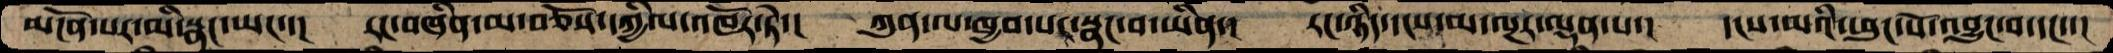མངོན་པར་མི་སྣང་ཡང་་།  རང་བཞིན་མ་བཅོས་དཀྱིལ་འཁོར་ཏེ་།  ཀུན་ལ་ཁྱབ་པར་སྣང་བ་ཡིན་།  རང་ཉིད་དངས་མ་ལྔར་ལྡན་པ་།  དངས་མའི་ཕུང་པོ་འབྱུང་བ་དང་་།
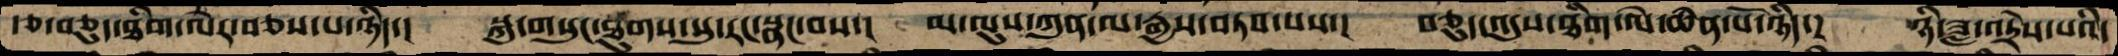རྩ་བཅུད་ཐིག་ལེར་བཅས་པ་ཉིད་།  སྐུ་གསུང་ཐུགས་སུ་རང་སྣང་བས་།  མ་ལུས་ཀུན་ལ་རྒྱས་བཏབ་པས་།  བཅུད་འདུས་ཐིག་ལེ་ཆེན་པོ་ཉིད་།  ཉི་ཟླ་འདྲེས་པའི་
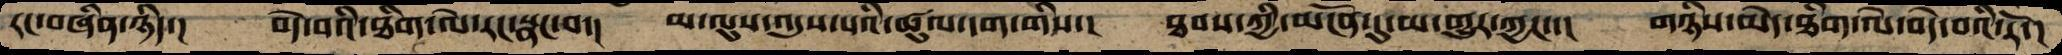རང་བཞིན་ཉིད་།  བདེ་བའི་ཐིག་ལེ་རང་སྣང་བ་།  མ་ལུས་འདུས་པའི་ཚུལ་དག་གིས་།  ཐབས་ཀྱི་མངོན་དུ་མ་གྱུར་ཀྱང་་།  གཉིས་མེད་ཐིག་ལེ་བདེ་བའི་རོ་།
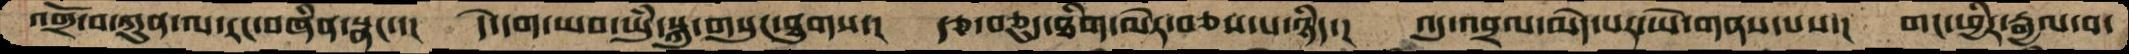འགྲོ་བ་ཀུན་ལ་རང་བཞིན་སྣང་་།  དེ་དག་ཡབ་ཡུཾ་སྐུ་གསུང་ཐུགས་།  རྩ་བཅུད་ཐིག་ལེར་བཅས་པ་ཉིད་།  འདུ་འབྲལ་མེད་པར་ཡེ་གནས་པས་།  གང་ཕྱིར་རྒྱལ་བ་
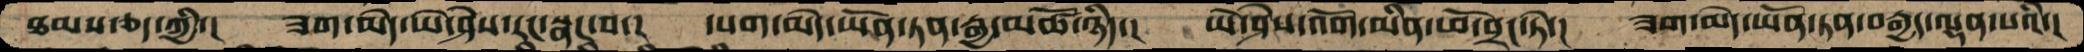ཐམས་ཅད་ཀྱི་།  ཟག་མེད་ཡེ་ཤེས་རང་སྣང་པ་།  དཔག་མེད་ཡོན་ཏན་རྒྱ་མཚོ་ཉིད་།  ཡེ་ཤེས་འོག་མིན་ཕོ་བྲང་ཏེ་།  ཟག་མེད་ཡོན་ཏན་བརྒྱད་ལྡན་པའི་།
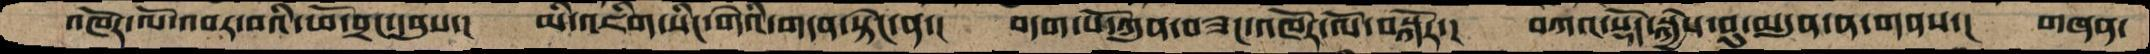འཁོར་ལོ་འབར་བའི་ཕོ་བྲང་དབུས་།  མི་འཇིག་སིང་གེའི་གདན་སྟེང་ན་།  བདག་པོ་ཀུན་བཟང་འཁོར་ལོ་བསྐོར་།  བཀའ་སྡདོ་སྐྱེས་བུ་མདུན་ན་གནས་།  གཞན་
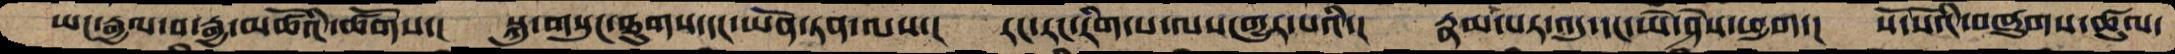ཡང་རྒྱལ་བ་རྒྱ་མཚོའི་ཚོགས་།   སྐུ་གསུང་ཐུགས་དང་ཡོན་ཏན་ལས་།  རང་རང་རིག་པ་ལས་གྱུར་པའི་།  རྣམ་པར་འདུ་དང་ཡེ་ཤེས་ཕྱག་།  སོ་སོའི་བཞུགས་ཚུལ་
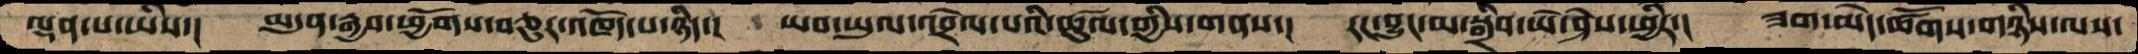ལྡན་པ་ཡིས་།  མདུན་རྒྱབ་ཕྱོགས་བཅུར་འཁོད་པ་ཉིད་།  ཡབ་ཡུལ་འབྲེལ་པའི་ཚུལ་གྱིས་གནས་།  རང་བྱུང་མ་སྒྲིབ་ཡེ་ཤེས་ཕྱིར་།  ཟག་མེད་ཚོགས་གཉིས་ལས་
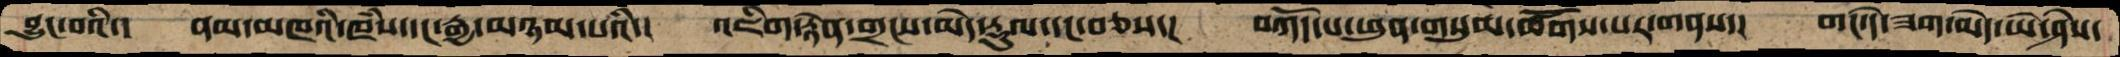བྱུང་བའི་།  ནམ་མཁའི་ཁཾས་དང་རྒྱ་མཉམ་པའི་།  འཇིག་རྟེན་གྲངས་མེད་རྡུལ་དང་བཅས་།  བཀོད་པ་ཕུན་གསུམ་ཚོགས་པར་གནས་།  གང་དེ་ཟག་མེད་ཡེ་ཤེས་
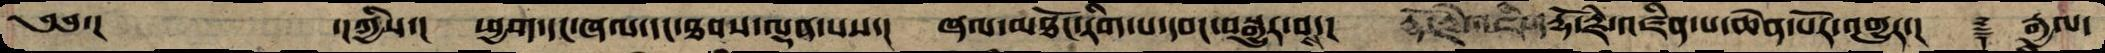༄༅་།  ་།ཀྱིས་།  ཕྱག་དང་ཞལ་དང་ཐབས་ལྡན་པས་།  ཞལ་མཐོང་རིག་པ་དབང་བསྒྱུར་བས་།  རྡོ་རྗེ་འཛིན་པ་ཆེན་པོར་འགྱུར་།  ༈  རྒྱལ་
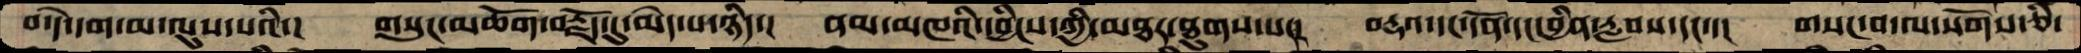བ་དེ་དག་མ་ལུས་པའི་།  གསུང་མཆོག་བརྗོད་དུ་མེད་པ་ཉིད་།  ནམ་མཁའི་དབྱིངས་ཀྱི་མཐར་ཐུགས་པར་།  བརྡའ་དང་དོན་དང་བྱིན་རླབས་དང་་།  གསང་བ་ལ་སོགས་ཅི་
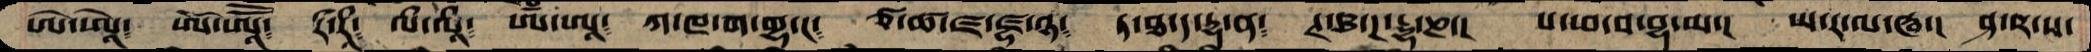ཨེ་ཨཱེ༴ ཨོ་ཨཱཽ༴ རྀ་རཱྀ༴ ལྀ་ལཱྀ༴ ཨཾཾཾ་ཨཱ༴ ཀ་ཁ་ག་གྷ་ང༴  ཙ་ཚ་ཛ་ཛྷ་ཉ༴  ཏ་ཐ་ད་དྷ་ན༴ ཊ་ཋ་ཌ་དྡྷ་ཎ་།  པ་ཕ་བ་བྷ་མ་།  ཡ་ར་ལ་ཝ་།  ཤ་ཥ་ས་
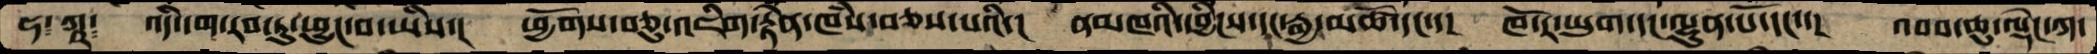ཧ༴ ཀྵ༴   འདི་དག་རབ་ཏུ་ཕྱུང་བ་ཡིས་།  ཕྱོགས་བཅུ་འཇིག་རྟེན་ཁཾས་བཅས་པའི་།  ནམཁའི་དབྱིངས་དང་རྒྱ་མཚོ་དང་་།  ཁོ་ར་ཡུག་དང་ལྷུན་པོ་དང་་།  འབབ་ཆུ་ལྡེང་ཀ་
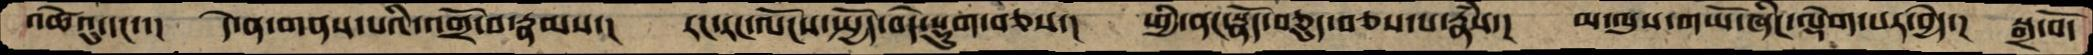འཚེའུ་དང་་།  དེ་ན་གནས་པའི་འགྲོ་བ་རྣམས་།  རང་རང་ལོངས་སྤྱོད་བདེ་སྡུག་བཅས་།   ཕྱི་ནང་སྣོད་བཅུད་བཅས་པ་རྣཾས་།  མ་ལུས་གཡོ་ཞིང་ལྡེག་པར་བྱེད་།  སྒྲ་བོ་
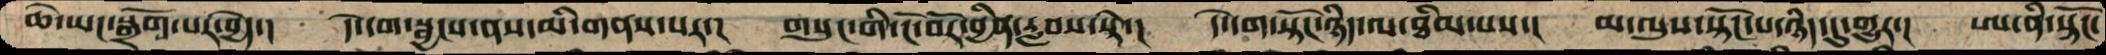ཆེ་ཡང་སྒྲོག་པར་བྱེད་།  དེ་དག་སྦྱངས་ནས་མི་གནས་པར་།  གསུང་གི་ངོ་བོར་བྱིན་རླབས་སྟེ་།  དེ་དག་སྟོང་ཉིད་ལ་ཐིམ་པས་།  མ་ལུས་སྟོང་པ་ཉིད་དུ་གྱུར་།།  ཨ་ནི་སྟོང་
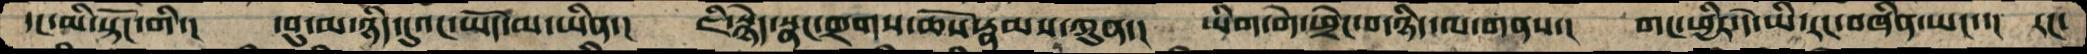དང་མི་སྟོང་གི་།   དབུ་མ་ཉིད་དུའང་ཡོད་མ་ཡིན་།  ཇི་སྙེད་སྣང་གྲགས་ཆོས་རྣམས་ཀུན་།  ཡིག་གེ་ཕྲེང་བ་ཉིད་ལ་གནས་།  གང་ཕྱིར་དེ་ཡི་རང་བཞིན་ཡང་་།  རང་
